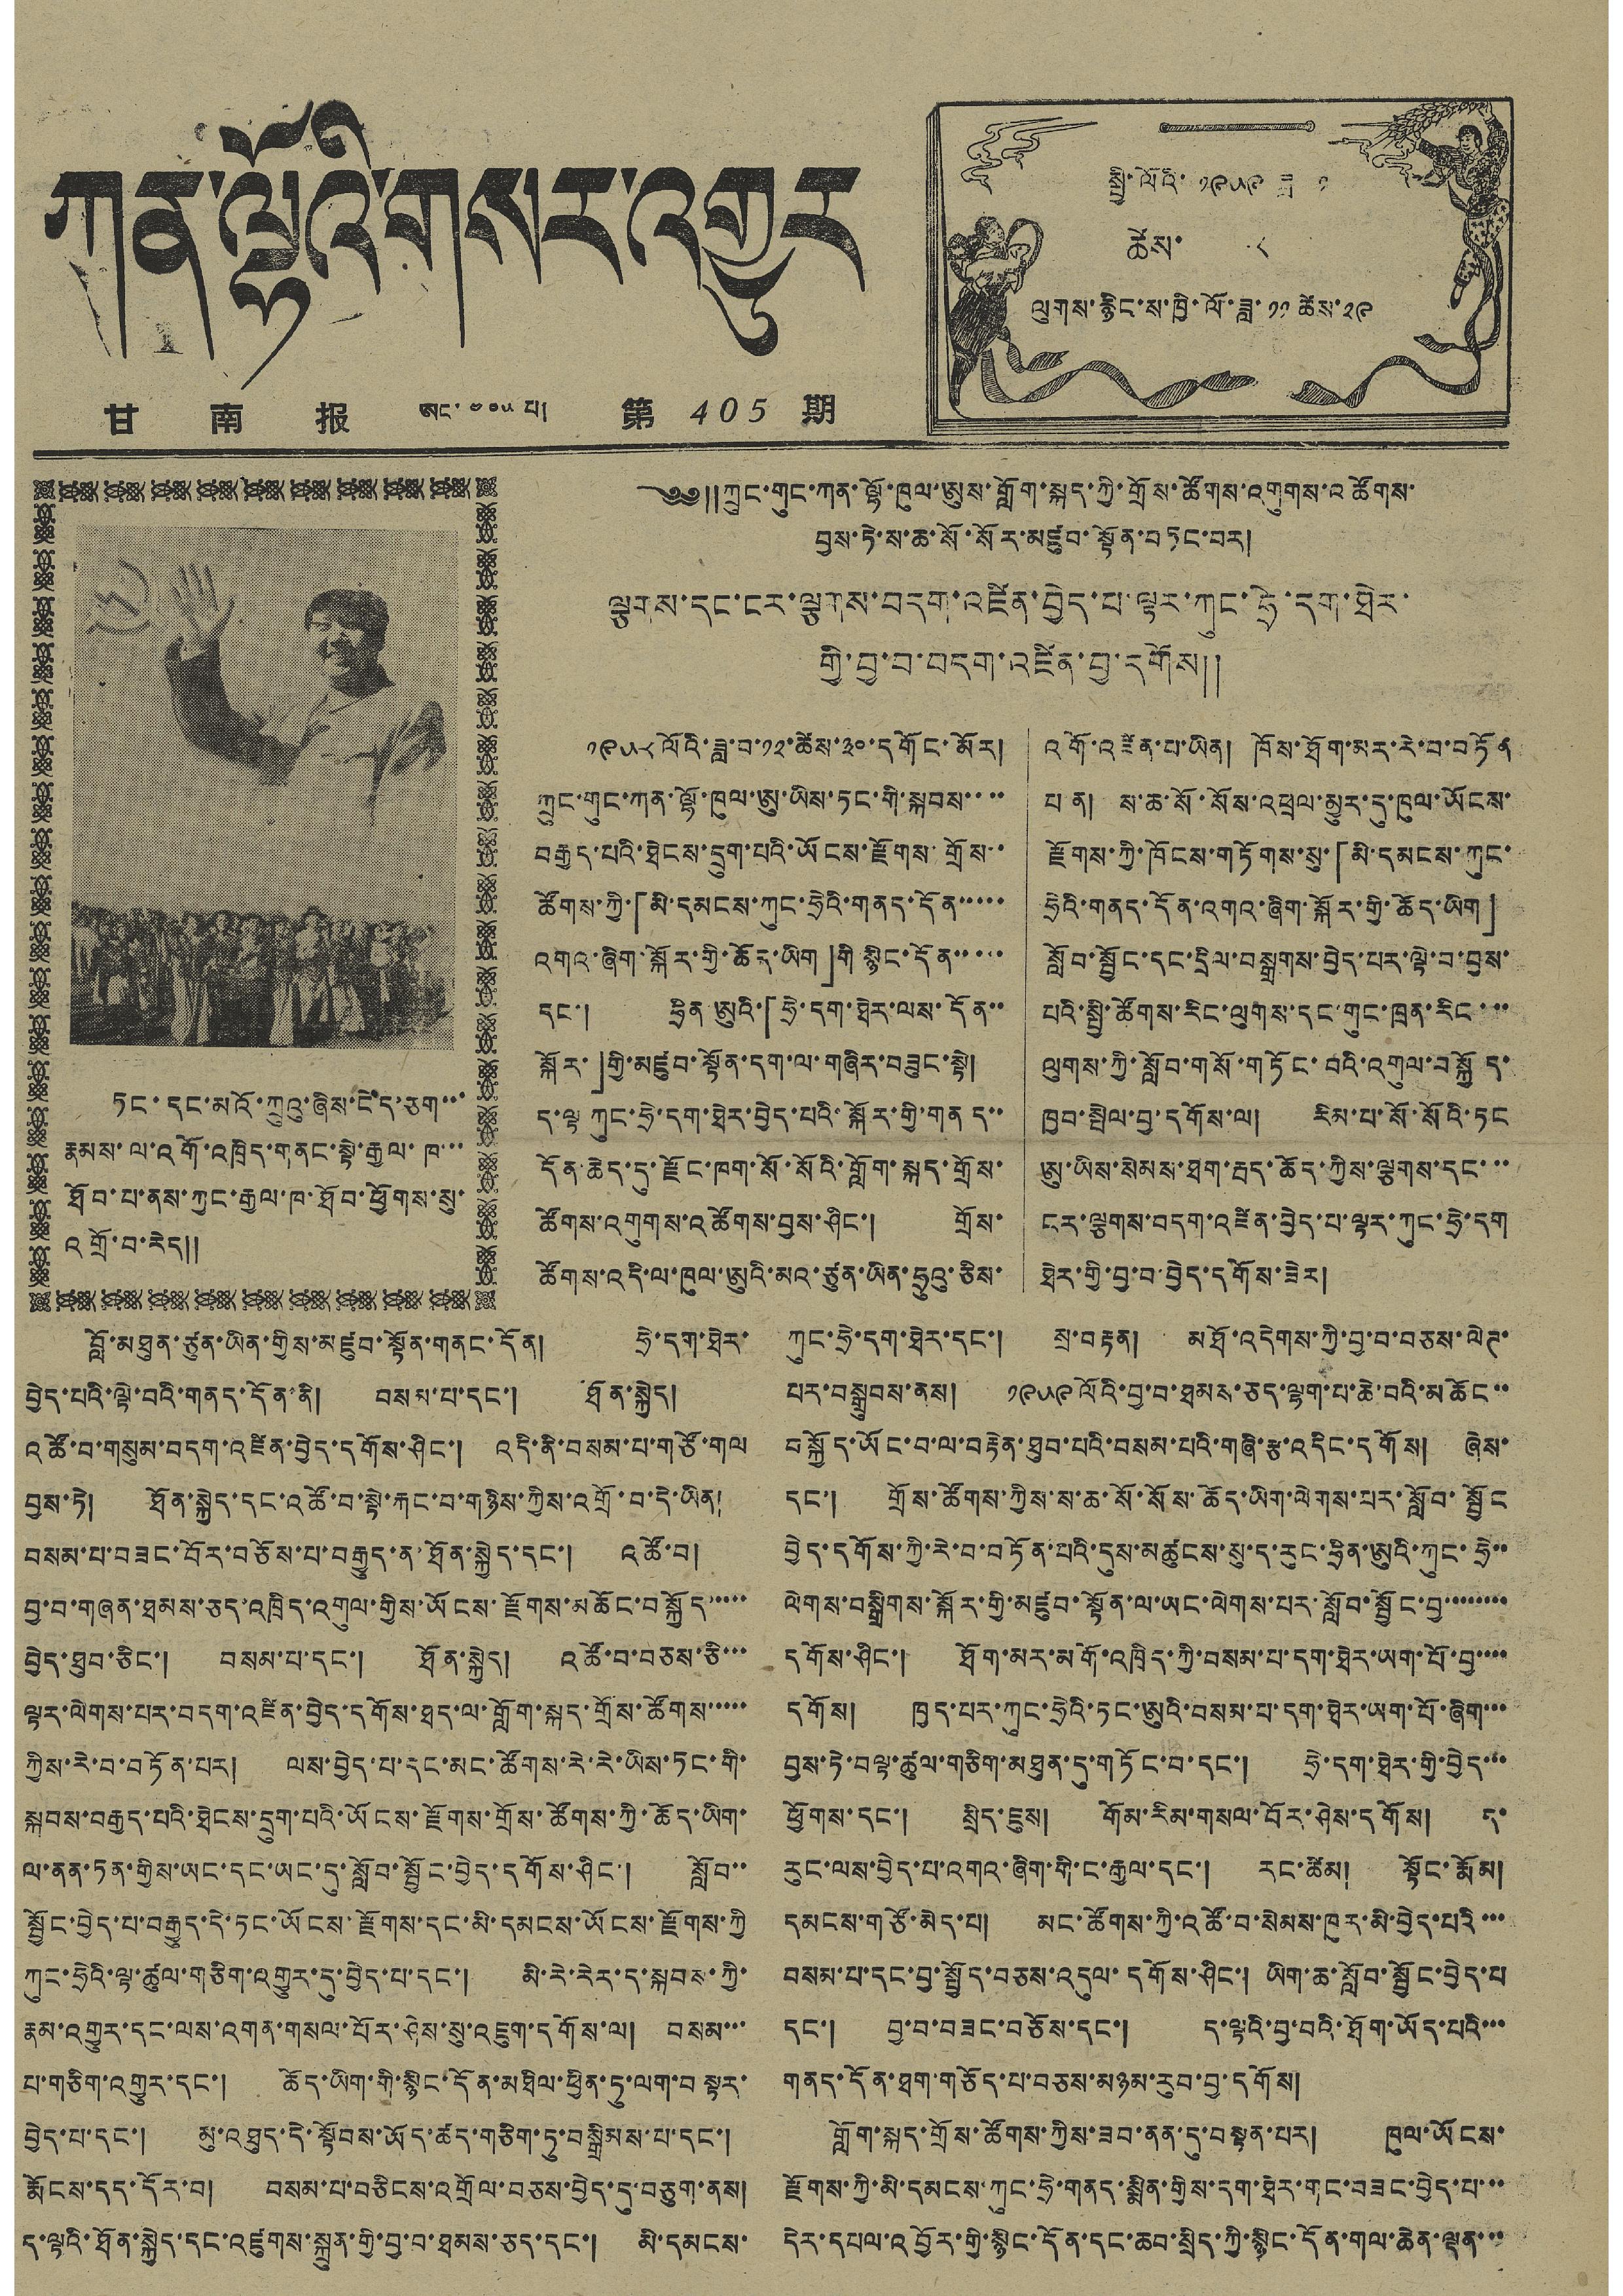ཀན་ལྷོའི་གསར་འགྱུར
甘 南 报 ཨང་ ༤༠༥ པ། 第 405 期
སྤྱི་ལོའི་ ༡༩༥༩ ཟླ་ ༡
ཚེས་ ༨
ལུགས་རྙིང་ས་ཁྱི་ལོ་ཟླ་ ༡༡ ཚེས་ ༢༩
༄༅༎ཀྲུང་གུང་ཀན་ལྷོ་ཁུལ་ཨུས་གློག་སྐད་ཀྱི་གྲོས་ཚོགས་འགུགས་འཚོགས་
བྱས་ཏེ་ས་ཆ་སོ་སོར་མཛུབ་སྟོན་བཏང་བར།
ལྕབས་དང་ངར་ལྕགས་བདག་འཛིན་བྱེད་པ་ལྟར་ཀུང་ཧྲེ་དག་ཐེར་
གྱི་བྱ་བ་བདག་འཛིན་བྱ་དགོས༎
ཏང་དང་མའོ་ཀྲུའུ་ཞིས་ངེད་ཅག་་་
རྣམས་ལ་འགོ་འཁྲིད་གནང་སྟེ་རྒྱལ་ཁ་་་
ཐོབ་པ་ནས་ཀྱང་རྒྱལ་ཁ་ཐོབ་ཕྱོགས་སུ་
འགྲོ་བ་རེད།།
༡༩༥༨ ལོའི་ཟླ་བ་ ༡༢ ཚེས་ ༣༠ དགོང་མོར།
ཀྲུང་གུང་ཀན་ལྷོ་ཁུལ་ཨུ་ཡིས་ཏང་གི་སྐབས་་་་
བརྒྱད་པའི་ཐེངས་དྲུག་པའི་ཡོངས་རྫོགས་གྲོས་་
ཚོགས་ཀྱི་「མི་དམངས་ཀུང་ཧྲེའི་གནས་དོན་་་་་
འགའ་ཞིག་སྐོར་གྱི་ཆོད་ཡིག་」གི་སྙིང་དོན་་་་་
དང་། ཧྲིན་ཨུའི་「ཧྲེ་དག་ཐེར་ལས་དོན་་
སྐོར་」གྱི་མཛུབ་སྟོན་དག་ལ་གཞིར་བཟུང་སྟེ།
ད་ལྟ་ཀུང་ཧྲེ་དག་ཐེར་བྱེད་པའི་སྐོར་གྱི་གནད་་
དོན་ཆེད་དུ་རྫོང་ཁག་སོ་སོའི་གློག་སྐད་གྲོས་
ཚོགས་འགུགས་འཚོགས་བྱས་ཤིང་། གྲོས་
ཚོགས་འདི་ལ་ཁུལ་ཨུའི་མའ་ཙུན་ཡིན་ཧྲུའུ་ཅིས་
འགོ་འཛིན་བ་ཡིན། ཁོས་ཐོག་མར་རེ་བ་བཏོན
པན། ས་ཆ་སོ་སོས་འཕྲལ་མྱུར་དུ་ཁུལ་ཡོངས་
རྫོགས་ཀྱི་ཁོངས་གཏོགས་སུ་「མི་དམངས་ཀུང་
ཧྲེའི་གནད་དོན་འགའ་ཞིག་སྐོར་གྱི་ཆོད་ཡིག」
སློབ་སྦྱོང་དང་དྲིལ་བསྒྲགས་བྱེད་པར་ལྟེ་བ་བྱས་
པའི་སྤྱི་ཚོགས་རིང་ལུགས་དང་གུང་ཁྲན་རིང་་་
ལུགས་ཀྱི་སློབ་གསོ་གཏོང་བའི་འགུལ་བསྐྱོད་
ཁྱབ་སྤེལ་བྱ་དགོས་ལ། རིམ་པ་སོ་སོའི་ཏང
ཨུ་ཡིས་སེམས་ཐག་རྦད་ཆོད་ཀྱིས་ལྕགས་དང་་་
ངར་ལྕགས་བདག་འཛིན་བྱེད་པ་ལྟར་ཀུང་ཧྲེ་དག
ཐེར་གྱི་བྱ་བ་བྱེད་དགོས་ཟེར།
བློ་མཐུན་ཙུན་ཡིན་གྱིས་མཛུབ་སྟོན་གནང་དོན། ཧྲེ་དག་ཐེར་
བྱེད་པའི་ལྟེ་བའི་གནད་དོན་ནི། བསམ་པ་དང་། ཐོན་སྐྱེད།
འཚོ་བ་གསུམ་བདག་འཛིན་བྱེད་དགོས་ཤིང་། འདི་ནི་བསམ་པ་གཙོ་གལ
བྱས་ཏེ། ཐོན་སྐྱེད་དང་འཚོ་བ་སྟེ་རྐང་བ་གཉིས་ཀྱིས་འགྲོ་བ་དེ་ཡིན།
བསམ་པ་བཟང་བོར་བཅོས་པ་བརྒྱུད་ན་ཐོན་སྐྱེད་དང་། འཚོ་བ།
བྱ་བ་གཞན་ཐམས་ཅད་འཁྲིད་འགུལ་གྱིས་ཡོངས་རྫོགས་མཆོང་བསྐྱོད་་་་་
བྱེད་ཐུབ་ཅིང་། བསམ་པ་དང་། ཐོན་སྐྱེད། འཚོ་བ་བཅས་ཅི་་་
ལྟར་ལེགས་པར་བདག་འཛིན་བྱེད་དགོས་ཐད་ལ་གློག་སྐད་གྲོས་ཚོགས་་་་་
ཀྱིས་རེ་བ་བཏོན་པར། ལས་བྱེད་པ་དང་མང་ཚོགས་རེ་རེ་ཡིས་ཏང་གི་
སྐབས་བརྒྱད་པའི་ཐེངས་དྲུག་པའི་ཡོངས་རྫོགས་གྲོས་ཚོགས་ཀྱི་ཆོད་ཡིག་
ལ་ནན་ཏན་གྱིས་ཡང་དང་ཡང་དུ་སློབ་སྦྱོང་བྱེད་དགོས་ཤིང་། སློབ་་
སྦྱོང་བྱེད་པ་བརྒྱུད་དེ་ཏང་ཡོངས་རྫོགས་དང་མི་དམངས་ཡོངས་རྫོགས་ཀྱི
ཀུང་ཧྲེའི་ལྟ་ཚུལ་གཅིག་འགྱུར་དུ་བྱེད་པ་དང་། མི་རེ་རེར་ད་སྐབས་ཀྱི་
རྣམ་འགྱུར་དང་ལས་འགན་གསལ་པོར་ཤེས་སུ་འཇུག་དགོས་ལ། བསམ་་་
པ་གཅིག་འགྱུར་དང་། ཆོད་ཡིག་གི་སྙིང་དོན་མཐིལ་ཕྱིན་ཏུ་ལག་བསྟར་
བྱེད་པ་དང་། མུ་འཐུད་དེ་སྟོབས་ཡོད་ཚད་གཅིག་ཏུ་བསྒྲིམས་པ་དང་།
རྨོངས་དད་དོར་བ། བསམ་པ་བཅིངས་འགྲོལ་བཅས་བྱེད་དུ་བཅུག་ནས།
ད་ལྟའི་ཐོན་སྐྱེད་དང་བཛུགས་སྐྲུན་གྱི་བྱ་བ་ཐམས་ཅད་དང་། མི་དམངས་
ཀུང་ཧྲེ་དག་ཐེར་དང་། སྲ་བརྟན། མཐོ་འདེགས་ཀྱི་བྱ་བ་བཅས་ལེཊ་
པར་བསྒྲུབས་ནས། ༡༩༥༩ ལོའི་བྱ་བ་ཐམས་ཅད་ལྷག་པ་ཆེ་བའི་མཆོང་་
བསྐྱོད་ཡོང་བ་ལ་བརྟེན་ཐུབ་པའི་བསམ་པའི་གཞི་རྩ་འདིང་དགོས། ཞེས་
དང་། གྲོས་ཚོགས་ཀྱིས་ས་ཆ་སོ་སོས་ཆོད་ཡིག་ལེགས་པར་སློབ་སྦྱོང
བྱེད་དགོས་ཀྱི་རེ་བ་བཏོན་པའི་དུས་མཚུངས་སུ་ད་རུང་ཧྲིན་ཨུའི་ཀུང་ཧྲེ་་
ལེགས་བསྒྲིགས་སྐོར་གྱི་མཛུབ་སྟོན་ལ་ཡང་ལེགས་པར་སློབ་སྦྱོང་བྱ་་་་་་་་
དགོས་ཤིང་། ཐོག་མར་མགོ་འཁྲིད་ཀྱི་བསམ་པ་དག་ཐེར་ཡག་པོ་བྱ་་་་
དགོས། ཁྱད་པར་ཀུང་ཧྲེའི་ཏང་ཨུའི་བསམ་པ་དག་ཐེར་ཡག་པོ་ཞིག་་་
བྱས་ཏེ་བལྟ་ཚུལ་གཅིག་མཐུན་དུ་གཏོང་བ་དང་། ཧྲེ་དག་ཐེར་གྱི་བྱེད་་་
ཕྱོགས་དང་། སྲིད་ཇུས། གོམ་རིམ་གསལ་བོར་ཤེས་དགོས། ད་
རུང་ལས་བྱེད་པ་འགའ་ཞིག་གི་ང་རྒྱལ་དང་། རང་ཚེམ། སྟོང་རྨོམ།
དམངས་གཙོ་མེད་པ། མང་ཚོགས་ཀྱི་འཚོ་བ་སེམས་ཁུར་མི་བྱེད་པའི་་་
བསམ་པ་དང་བྱ་སྤྱོད་བཅས་འདུལ་དགོས་ཤིང་། ཡིག་ཆ་སློབ་སྦྱོང་བྱེད་པ
དང་། བྱ་བ་བཟང་བཅོས་དང་། ད་ལྟའི་བྱ་བའི་ཐོག་ཡོད་པའི་་་
གནད་དོན་ཐག་གཅོད་པ་བཅས་མཉམ་རུབ་བྱ་དགོས།
གློག་སྐད་གྲོས་ཚོགས་ཀྱིས་ཟབ་ནན་དུ་བསྟན་པར། ཁུལ་ཡོངས་
རྫོགས་ཀྱི་མི་དམངས་ཀུང་ཧྲེ་གནད་སྨིན་གྱིས་དག་ཐེར་གང་བཟང་བྱེད་པ་་་
དེར་དཔལ་འབྱོར་གྱི་སྙིང་དོན་དང་ཆབ་སྲིད་ཀྱི་སྙིང་དོན་གལ་ཆེན་ལྡན་་་
